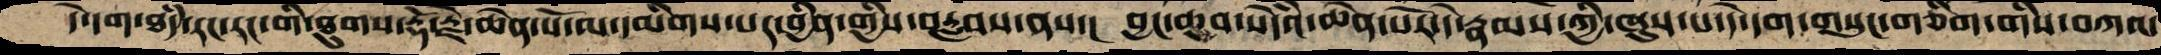དེ་དག་ཐདཾ་རང་རང་གི་ཐུགས་རྡོ་རྗེ་ཆེན་པོ་ལ་དམིགས་པར་བྱིན་གྱིས་བརླབས་ནས་།  བྱང་ཆུབ་སེདཾའ་ཆེན་པོར་དེ་རྣམས་ཀྱི་ཞུས་པ་དེ་དག་གསུང་གཅིག་གིས་བཀའ་
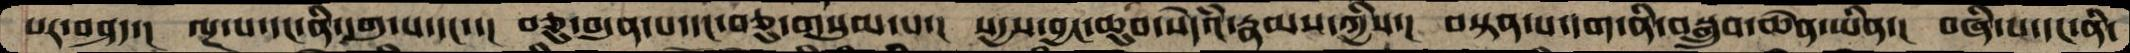པར་བཤད་།  ལྔ་པ་དང་ནི་དགུ་པ་དང་་།  བཅུ་བདུན་པ་དང་བཅུ་གསུམ་པ་།  སདྱས་བྱང་ཆུབ་སེདཾའ་རྣམས་ཀྱིས་།  བསྟན་པ་དག་ནི་བསྒྲུབ་ཆེན་ཡིན་།   བཞི་པ་དང་ནི་
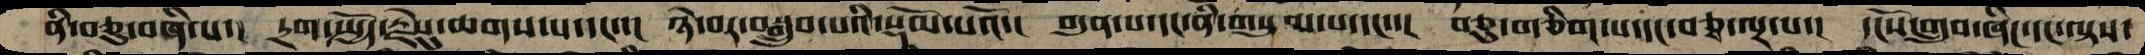ནི་བཅུ་བཞི་པ་།  དྲག་སྤྱོད་རྗེསུ་ཆགས་པ་དང་་།  ཉེ་བར་བསྒྲུབ་པའི་སྡོམ་པའོ་།  བདུན་པ་དང་ནི་གསུམ་པ་དང་་།  བཅུ་གཅིག་པ་དང་བཅྭ་ལྔ་པ་།  དངོས་གྲུབ་ཞིང་དང་ལྟས་
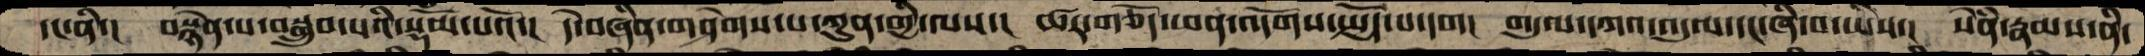དང་ནི་།  བསྙེན་པ་བསྒྲུབ་པའི་སྡོམ་པའོ་།  དེ་བཞིན་གཤེགས་པ་ཀུན་གྱི་ལས་།  ཚར་གཅོད་ཕན་འདོགས་སྤྱོད་པ་དག།  གདུལ་དཀའ་འདུལ་དང་ཞི་བ་ཡིས་།  སེཾན་རྣམས་ནི་
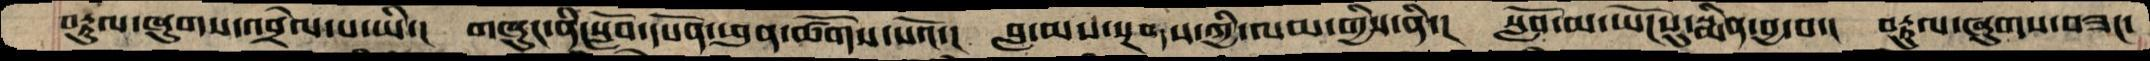བརྟུལ་ཞུགས་འབྲེལ་པ་ཡི་།  གཞུང་ནི་སློབ་དཔོན་ཕུན་ཚོགས་པའོ་།  བླ་མས་སྔགས་ཀྱི་ལམ་གྱིས་ནི་།  སློབ་མ་ཡོངསུ་སྨིན་བྱ་བ་།  བརྟུལ་ཞུགས་བཟང་
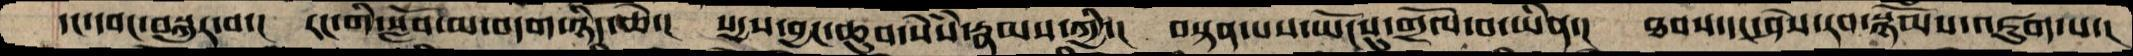དང་དབང་བསྐུར་བ་།  རང་གི་སློབ་མ་བདག་ཉིད་ཆེ་།  སདྱས་བྱང་ཆུབ་སེཾས་རྣམས་ཀྱི་།  བསྟན་པས་ཡོངསུ་གྲོལ་བ་ཡིན་།  ཐབས་དང་ཤེས་རབ་སྙོམས་འཇུག་པ་།
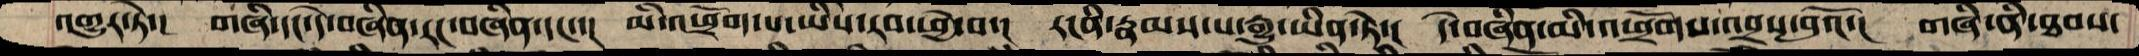འགྱུར་ཏེ་།   གཞི་དང་དེ་བཞིན་རང་བཞིན་དང་་།  མི་འཕྲོག་པ་ཡིས་རབ་ཕྱེ་བ་།  རངིན་རྣམས་པ་རྒྱུ་ཡིན་ཏེ་།  དེ་བཞིན་མི་འཕྲོགས་འབྲས་བུའོ་།  གཞི་ནི་ཐབས་
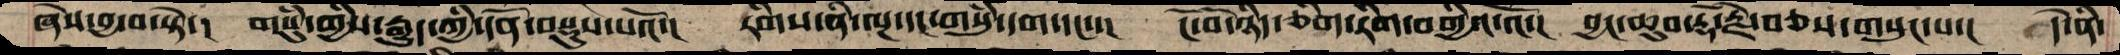ཞེས་བྱ་བ་སྟེ་།  གསུཾ་གྱིས་རྒྱུད་ཀྱི་དོན་བསྡུས་པའོ་།   རིགས་ནི་ལྔ་དང་གསུཾ་དག་དང་་།  ངོ་བོ་ཉིད་ཅིག་རིག་བགྱིའ་འོ་།  བྱང་ཆུབ་རྡོ་རྗེ་བཅས་གསུང་པ་།  དེ་ནི་
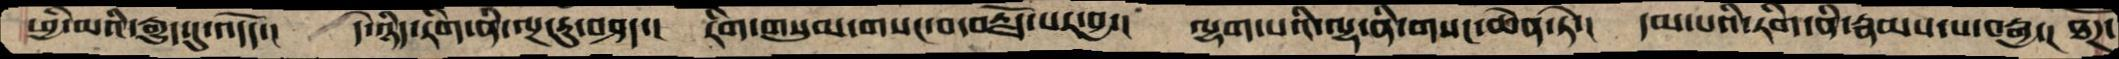ཕྱི་མའི་རྒྱུད་དུ་འདོད་།  དེ་ཉིད་རིག་ནི་ལྔ་རུ་བཤད་།  རིག་གསུམ་གསང་བ་བརྗོད་པར་བྱ་།  ལྷག་པའི་ལྷ་ནི་གསང་ཆེན་ཏེ་།  དམ་པའི་རིག་ནི་རྣམས་པ་བརྒྱ་།  ཐོཌ་
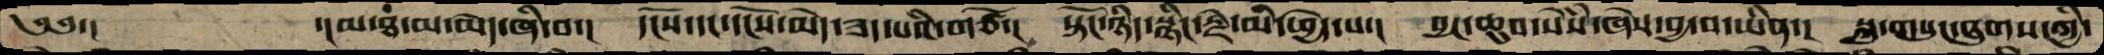༄༅་།      ་།མ་ཐ་མ་མེད་ཞི་བ་།   དངོས་དང་དངོས་མེད་ཟད་པའི་གཙོ་།   སྟོང་ཉིད་སྙིང་རྗེ་མི་ཕྱེད་པ་།  བྱང་ཆུབ་སེཾས་ཞེས་བྱ་བ་ཡིན་།  སྐུ་གསུང་ཐུགས་ཀྱི་
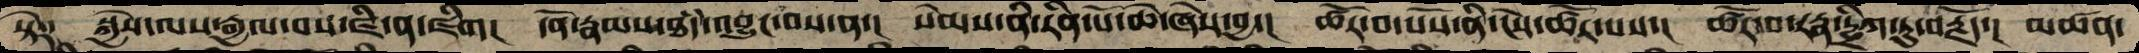སྟེ༑  སྐྱེས་ལས་རྒྱལ་བས་ཛི་ན་ཛིག།   དོན་རྣམས་ཐཾད་འབྱུང་བས་ན་།  སེམས་ནི་རིན་པོ་ཆེ་ཞེས་བྱ་།  ཚོར་བ་པོས་ནི་ངེས་ཚོར་པས་།  ཚོར་བ་རཏྣ་དྷྲིཀ་ཏུ་བརྗོད་།  མཚན་
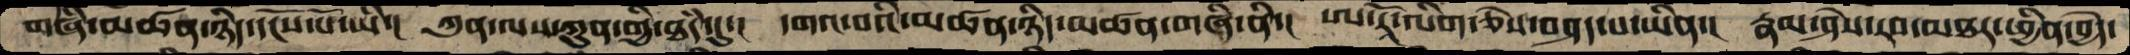གཞི་མཚན་ཉིད་དངོས་པོ་ཡི་།  ཀུན་ལས་ཀུན་གྱི་ཐཾད་དུ་།  དགའ་བའི་མཚན་ཉིད་མཚན་གཞི་ནི་།  ཨ་རཱོ་ལིག་ཅེས་བཤད་པ་ཡིན་།  རྣམ་ཤེས་རབ་མཐར་ཕྱིན་བྱེད་
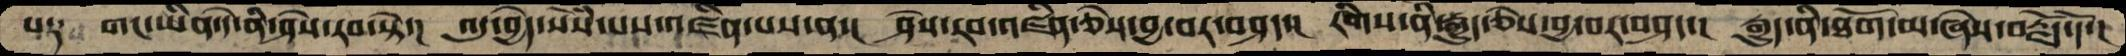པ༑   གང་ཡིན་དེ་ནི་ཤེས་རབ་སྟེ་།  འདུ་བྱེད་སེཾས་པས་འཛིན་པས་ན་།  ཤེས་རབ་འཛིན་ཅེས་བྱ་བར་བཤད་།  རིགས་ནི་རྒྱུད་ཅེས་བྱ་བར་བཤད་།  རྒྱུད་ནི་ཐོག་མ་ཞེས་བརྗོད་དོ་།
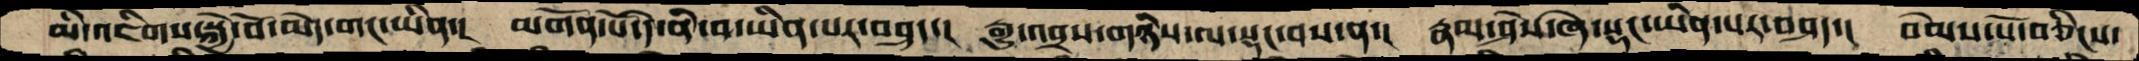མི་འཇིགས་སྐྱེ་བོ་མེད་གང་ཡིན་།  མགོན་པོ་དེ་ནི་བ་ཡིན་པར་བཤད་།  རྒྱུ་འབྲས་གཉིས་ལ་སྡང་བས་ན་།  རྣམ་ཤེས་ཞེ་སྡང་ཡིན་པར་བཤད་།  བེམས་པོ་བཅིངས་
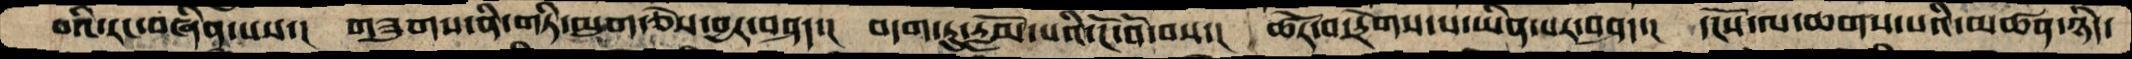བའི་རང་བཞིན་པས་།  གཟུགས་ནི་གཏི་མུག་ཅེས་བྱར་བཤད་།  བདག་ཏུ་རློམ་པའི་ངོ་བོ་བས་།  ཚོར་བ་དྲོགས་པ་ཡིན་པར་བཤད་།  དངོས་ལ་ཆགས་པའི་མཚན་ཉིད་
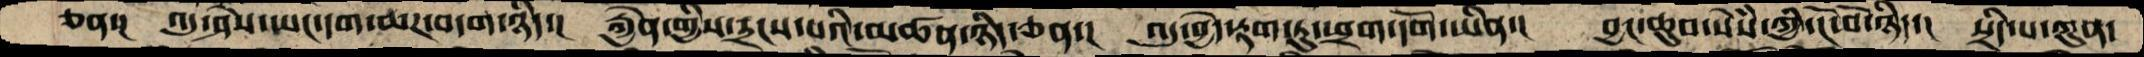ཅན་།  འདུ་ཤེས་ཡང་དག་ཆཌ་བདག་ཉིད་།  རྐྱེན་གྱིས་དྲངས་པའི་མཚན་ཉིད་ཅན་།  འདུ་བྱེད་རྟག་ཏུ་ཕྲག་དོག་ཡིན་། བྱང་ཆུབ་སེསཾ་ཀྱི་ངོ་བོ་ཉིད་།  སྲིད་པ་ཀུན་
